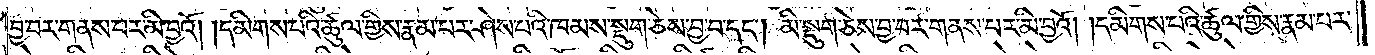བྱ་བར་གནས་པར་མི་བྱའོ། །དམིགས་པའི་ཚུལ་གྱིས་རྣམ་པར་ཤེས་པའི་ཁམས་སྡུག་ཅེས་བྱ་བ་དང༌། མི་སྡུག་ཅེས་བྱ་བར་གནས་པར་མི་བྱའོ། །དམིགས་པའི་ཚུལ་གྱིས་རྣམ་པར་
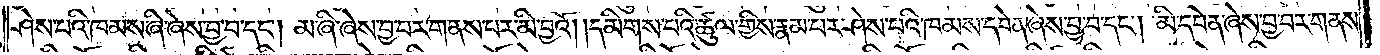ཤེས་པའི་ཁམས་ཞི་ཞེས་བྱ་བ་དང༌། མ་ཞི་ཞེས་བྱ་བར་གནས་པར་མི་བྱའོ། །དམིགས་པའི་ཚུལ་གྱིས་རྣམ་པར་ཤེས་པའི་ཁམས་དབེན་ཞེས་བྱ་བ་དང༌། མི་དབེན་ཞེས་བྱ་བར་གནས་
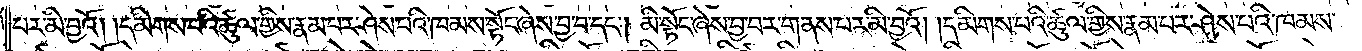པར་མི་བྱའོ། །དམིགས་པའི་ཚུལ་གྱིས་རྣམ་པར་ཤེས་པའི་ཁམས་སྟོང་ཞེས་བྱ་བ་དང༌། མི་སྟོང་ཞེས་བྱ་བར་གནས་པར་མི་བྱའོ། །དམིགས་པའི་ཚུལ་གྱིས་རྣམ་པར་ཤེས་པའི་ཁམས་
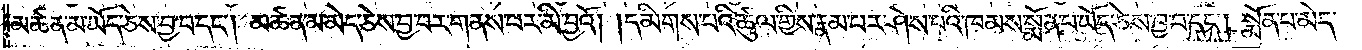མཚན་མ་ཡོད་ཅེས་བྱ་བ་དང༌། མཚན་མ་མེད་ཅེས་བྱ་བར་གནས་པར་མི་བྱའོ། །དམིགས་པའི་ཚུལ་གྱིས་རྣམ་པར་ཤེས་པའི་ཁམས་སྨོན་པ་ཡོད་ཅེས་བྱ་བ་དང༌། སྨོན་པ་མེད་
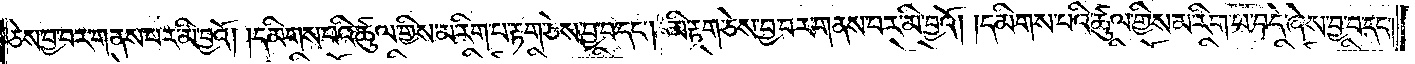ཅེས་བྱ་བར་གནས་པར་མི་བྱའོ། །དམིགས་པའི་ཚུལ་གྱིས་མ་རིག་པ་རྟག་ཅེས་བྱ་བ་དང༌། མི་རྟག་ཅེས་བྱ་བར་གནས་པར་མི་བྱའོ། །དམིགས་པའི་ཚུལ་གྱིས་མ་རིག་པ་བདེ་ཞེས་བྱ་བ་དང༌།
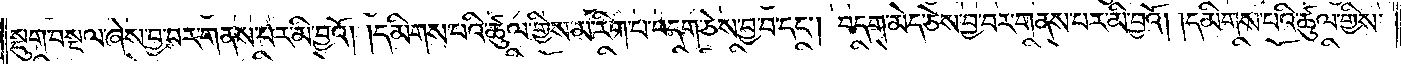སྡུག་བསྔལ་ཞེས་བྱ་བར་གནས་པར་མི་བྱའོ། །དམིགས་པའི་ཚུལ་གྱིས་མ་རིག་པ་བདག་ཅེས་བྱ་བ་དང༌། བདག་མེད་ཅེས་བྱ་བར་གནས་པར་མི་བྱའོ། །དམིགས་པའི་ཚུལ་གྱིས་
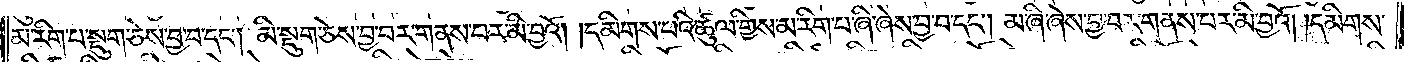མ་རིག་པ་སྡུག་ཅེས་བྱ་བ་དང༌། མི་སྡུག་ཅེས་བྱ་བར་གནས་པར་མི་བྱའོ། །དམིགས་པའི་ཚུལ་གྱིས་མ་རིག་པ་ཞི་ཞེས་བྱ་བ་དང༌། མ་ཞི་ཞེས་བྱ་བར་གནས་པར་མི་བྱའོ། །དམིགས་
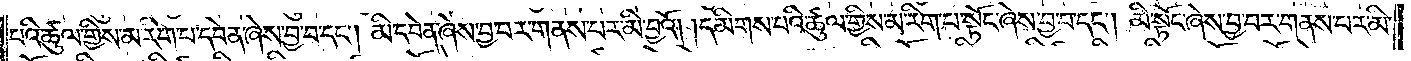པའི་ཚུལ་གྱིས་མ་རིག་པ་དབེན་ཞེས་བྱ་བ་དང༌། མི་དབེན་ཞེས་བྱ་བར་གནས་པར་མི་བྱའོ། །དམིགས་པའི་ཚུལ་གྱིས་མ་རིག་པ་སྟོང་ཞེས་བྱ་བ་དང༌། མི་སྟོང་ཞེས་བྱ་བར་གནས་པར་མི་
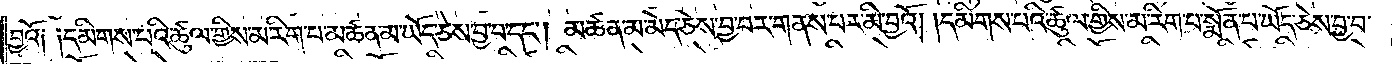བྱའོ། །དམིགས་པའི་ཚུལ་གྱིས་མ་རིག་པ་མཚན་མ་ཡོད་ཅེས་བྱ་བ་དང༌། མཚན་མ་མེད་ཅེས་བྱ་བར་གནས་པར་མི་བྱའོ། །དམིགས་པའི་ཚུལ་གྱིས་མ་རིག་པ་སྨོན་པ་ཡོད་ཅེས་བྱ་བ་
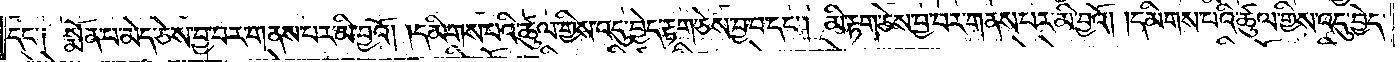དང༌༏ སྨོན་པ་མེད་ཅེས་བྱ་བར་གནས་པར་མི་བྱའོ། །དམིགས་པའི་ཚུལ་གྱིས་འདུ་བྱེད་རྟག་ཅེས་བྱ་བ་དང༌། མི་རྟག་ཅེས་བྱ་བར་གནས་པར་མི་བྱའོ། །དམིགས་པའི་ཚུལ་གྱིས་འདུ་བྱེད་
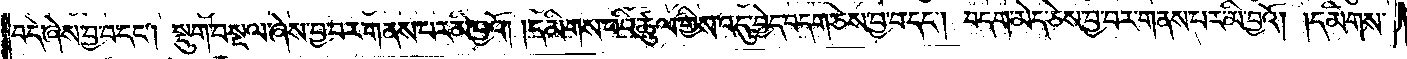བདེ་ཞེས་བྱ་བ་དང༌། སྡུག་བསྔལ་ཞེས་བྱ་བར་གནས་པར་མི་བྱའོ། །དམིགས་པའི་ཚུལ་གྱིས་འདུ་བྱེད་བདག་ཅེས་བྱ་བ་དང༌། བདག་མེད་ཅེས་བྱ་བར་གནས་པར་མི་བྱའོ། །དམིགས་
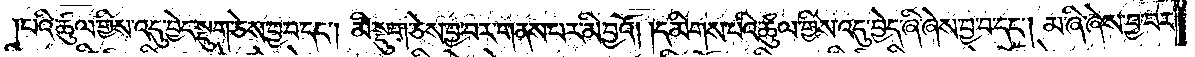པའི་ཚུལ་གྱིས་འདུ་བྱེད་སྡུག་ཅེས་བྱ་བ་དང༌། མི་སྡུག་ཅེས་བྱ་བར་གནས་པར་མི་བྱའོ། །དམིགས་པའི་ཚུལ་གྱིས་འདུ་བྱེད་ཞི་ཞེས་བྱ་བ་དང༌། མ་ཞི་ཞེས་བྱ་བར་
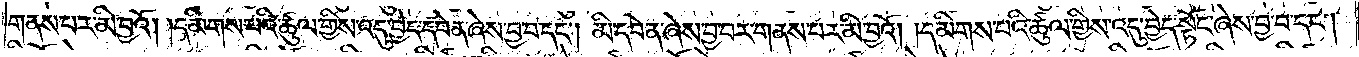གནས་པར་མི་བྱའོ། །དམིགས་པའི་ཚུལ་གྱིས་འདུ་བྱེད་དབེན་ཞེས་བྱ་བ་དང༌། མི་དབེན་ཞེས་བྱ་བར་གནས་པར་མི་བྱའོ། །དམིགས་པའི་ཚུལ་གྱིས་འདུ་བྱེད་སྟོང་ཞེས་བྱ་བ་དང༌།
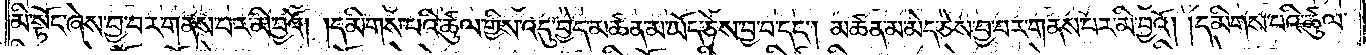མི་སྟོང་ཞེས་བྱ་བར་གནས་པར་མི་བྱའོ། །དམིགས་པའི་ཚུལ་གྱིས་འདུ་བྱེད་མཚན་མ་ཡོད་ཅེས་བྱ་བ་དང༌། མཚན་མ་མེད་ཅེས་བྱ་བར་གནས་པར་མི་བྱའོ། །དམིགས་པའི་ཚུལ་
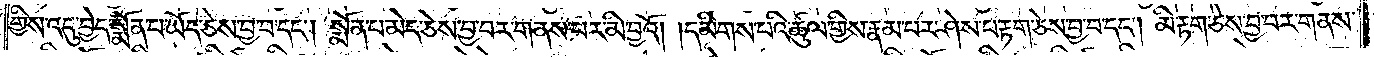གྱིས་འདུ་བྱེད་སྨོན་པ་ཡོད་ཅེས་བྱ་བ་དང༌། སྨོན་པ་མེད་ཅེས་བྱ་བར་གནས་པར་མི་བྱའོ། །དམིགས་པའི་ཚུལ་གྱིས་རྣམ་པར་ཤེས་པ་རྟག་ཅེས་བྱ་བ་དང༌། མི་རྟག་ཅེས་བྱ་བར་གནས་
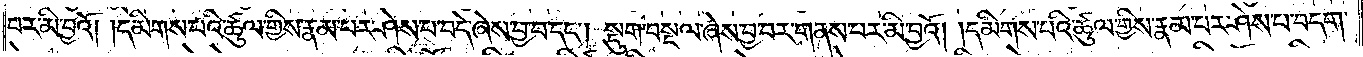པར་མི་བྱའོ། །དམིགས་པའི་ཚུལ་གྱིས་རྣམ་པར་ཤེས་པ་བདེ་ཞེས་བྱ་བ་དང༌། སྡུག་བསྔལ་ཞེས་བྱ་བར་གནས་པར་མི་བྱའོ། །དམིགས་པའི་ཚུལ་གྱིས་རྣམ་པར་ཤེས་པ་བདག་
